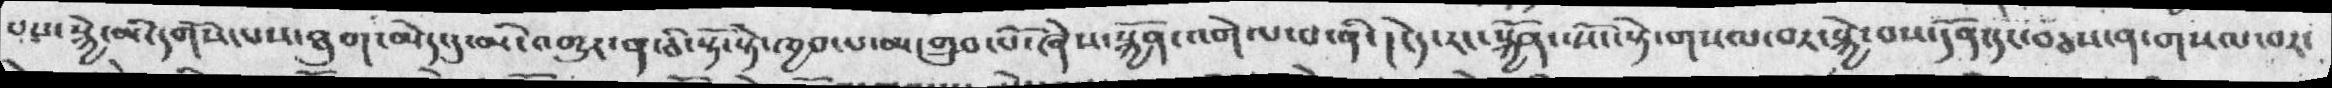པས་སྐྱེ་མི་དགོས་པས་ཐུག་མེད་དུ་མི་འགྱུར་ན་ཅི་སྟོ་སྟེ་ཁྱབ་པ་མ་གྲུབ་པོ་ཞེས་སྐྱོན་འགེལ་བ་ནི་།  ངེད་རང་སྐྱོན་སོང་སྟེ་གསལ་བར་སྐྱེ་བས་དོན་དང་བཅས་ན་གསལ་བར་
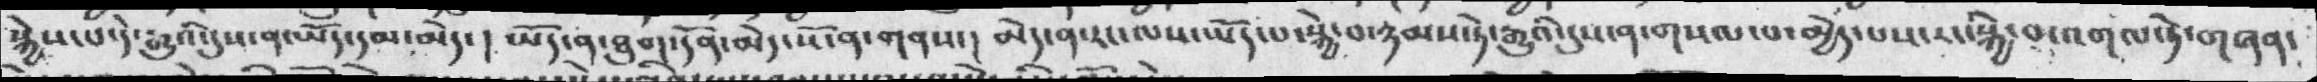སྐྱེས་པ་དེ་རྒྱའི་དུས་ན་ཡོད་དམ་མེད་།  ཡོད་ན་ཐུག་དོན་མེད་སོ་ན་གནས་།  མེད་ན་རང་ལས་ཡོད་པ་སྐྱེ་བ་ཉམས་ཏེ་རྒྱུའི་དུས་ན་གསལ་པ་མྱེད་པས་རང་སྐྱི་བ་འགལ་ཏེ་གཞན་
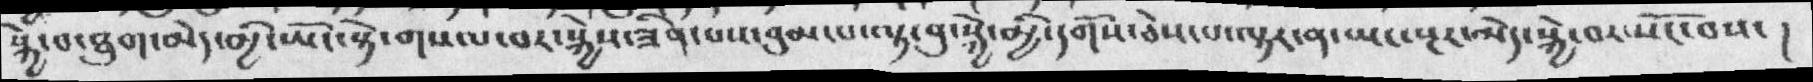སྐྱེ་བ་ཐུག་མེད་མྱི་ཡོང་སྟེ་གསལ་བར་སྐྱེས་ཟིན་པས་བུམ་པ་ལྟ་བུ་སྐྱེ་མྱི་དགོས་ཅེས་པ་ལྟར་ན་ཡང་སྔར་མེད་སྐྱེ་བར་སོང་བས་ །
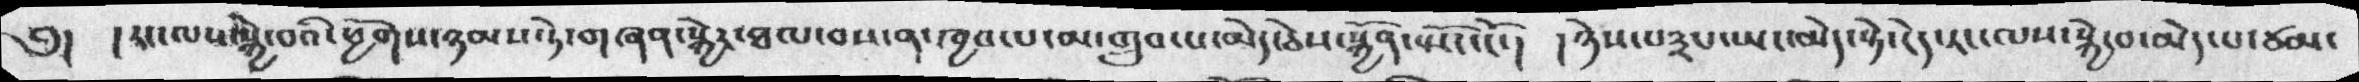༅། །རང་ལས་སྐྱེ་བའི་ཕྱོགས་ཉམས་ཏེ་གཞན་སྐྱེར་ཐལ་བས་ན་ཁྱབ་པ་མ་གྲུབ་པ་མེད་ཅེས་སྐྱོན་སྤོང་ངོ་། །ཉེས་པ༣པ་ཡང་མེད་སྟེ་ངེད་རང་ལས་སྐྱེ་བ་མེད་པ་ཙམ་
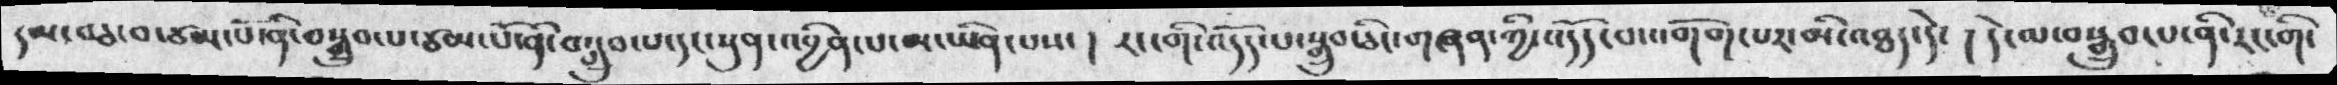དམ་བཅ་བ་ཙམ་པོ་ནི་བསྒྲུབ་པ་ཙམ་པོ་ནི་བསྒྲུབ་པ་དང་སུན་འབྱིན་པ་མ་ཡིན་པས་། རང་གི་འདོད་པ་སྒྲུབ་ཅིང་གཞན་ཀྱི་འདོད་པ་འགོག་པར་མི་འཐད་དེ་། དེ་ལ་བསྒྲུབ་པ་ནི་རང་གི་
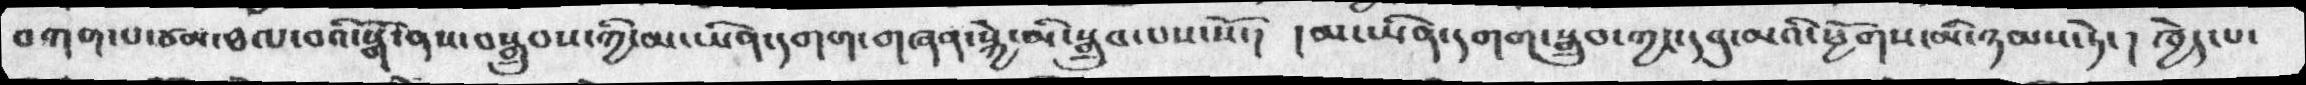བཀག་པ་ཙམ་ཐལ་བའི་སྒོ་ནས་བསྒྲུབས་ཀྱི་མ་ཡིན་དགག་གཞན་སྐྱེ་མི་སྒྲུབ་པས་སོ་།  །མ་ཡིན་དགག་སྒྲུབ་ཀྱང་དབུ་མའི་ཕྱོགས་མ་ཉམས་ཏེ་། ཁྱེད་པ་
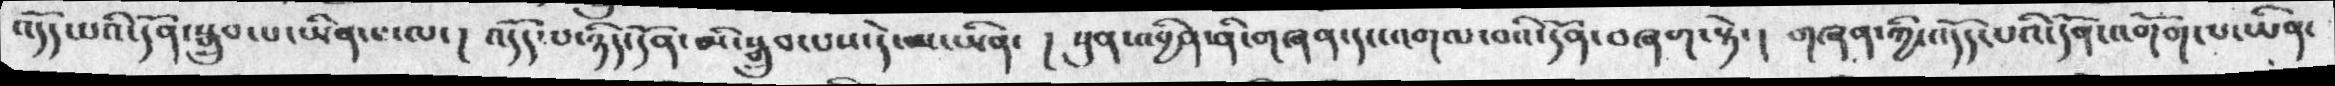འདོད་པའི་དོན་སྒྲུབ་པ་ཡིན་པ་ལ་། འདོད་པ་ཉིད་དོན་མི་སྒྲུབ་པས་དེ་མ་ཡིན་ ། སུན་འབྱིན་ནི་གཞན་དང་འགལ་བའི་དོན་བཞག་སྟེ་། གཞན་གྱི་འདོད་་པའི་དོན་འགོག་པ་ཡིན་
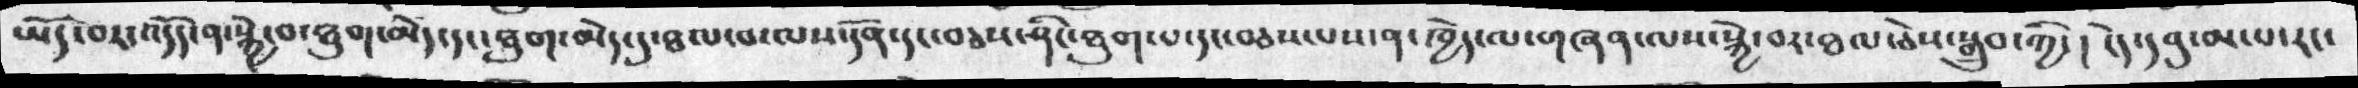ཡོད་བར་འདོད་ན་སྐྱེ་བ་ཐུག་མེད་དང་ཐུག་མེད་དུ་ཐལ་བ་ལས་དོན་དང་བཅས་ཤིང་ཐུག་པ་དང་བཅས་པས་ན་ཁྱེད་ལ་གཞན་ལས་སྐྱེ་བར་ཐལ་ཅེས་སྒྲུབ་ཀྱི་ ། ངེད་དབུ་མ་པ་རང་
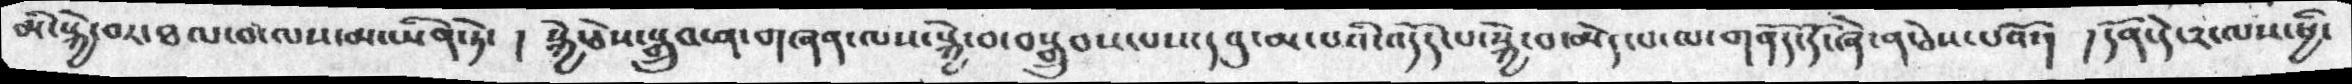མི་སྐྱེ་བར་ཐལ་བ་ལས་མ་ཡིན་ཏེ་  ། སྐྱེ་ཅེས་སྒྲུབ་ན་གཞན་ལས་སྐྱེ་བ་བསྒྲུབ་པས་དབུ་མ་པའི་འདོད་པ་སྐྱེ་བ་མེད་པ་ལ་གནོད་དོ་ཞེ་ན་ཅེས་པའོ་།  །དོན་དེ་༢་ལས་ཕྱི་
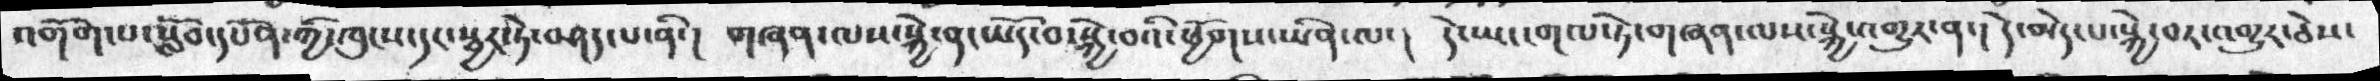འགོག་པ་སློབ་དཔོན་གྱི་ཁུངས་དང་སྦྱར་ཏེ་བཤད་པ་ནི་།  གཞན་ལས་སྐྱེ་ན་ཡོད་པ་སྐྱེ་བའི་ཕྱོགས་ཡིན་ལ་། དེ་ཡང་གལ་ཏེ་གཞན་ལས་སྐྱེ་འགྱུར་ན་། དེ་མེད་པ་སྐྱེ་བར་འགྱུར་ཅེས་
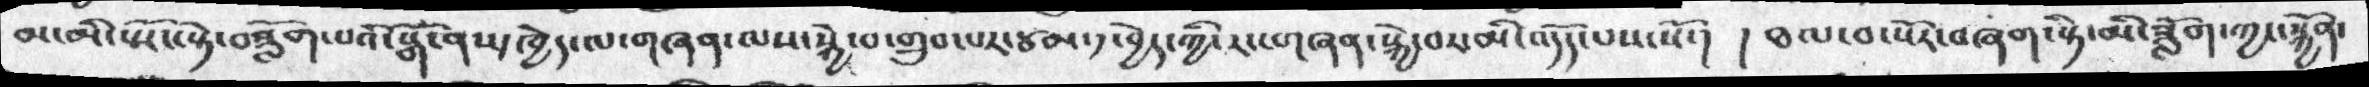མ་མི་སྤོང་སྟེ་བཟློག་པའི་སྒོ་ནས་ཁྱེད་ལ་གཞན་ལས་སྐྱེ་བ་གྲུབ་པར་ཙམ་༡་བྱེད་ཀྱི་རང་གཞན་སྐྱེ་བར་མི་འདོད་པས་སོ་།  ། ཐལ་བ་སོར་བཞག་སྟེ་མ་ཟློག་ཀྱང་སྐྱོན་
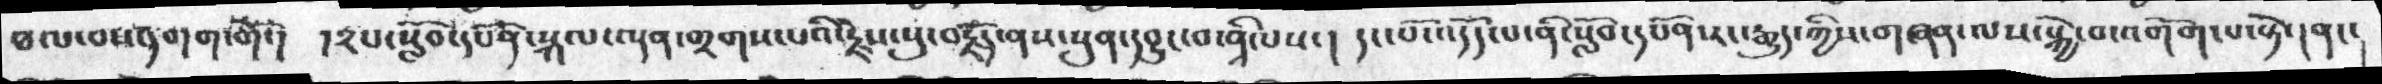ཐལ་བས་དགག་གོ་། །༢པ་སློབ་དཔོན་སྐལ་ལྡན་གྲགས་པའི་རྗེས་སུ་བརྗོད་ནས་སུན་དབྱུང་བ་ནི་པས་། དང་པོ་འདོད་པ་ནི་སློབ་དཔོན་རང་རྒྱུད་ཀྱིས་གཞན་ལས་སྐྱེ་བ་འགོག་པ་སྟེ་། ནང་
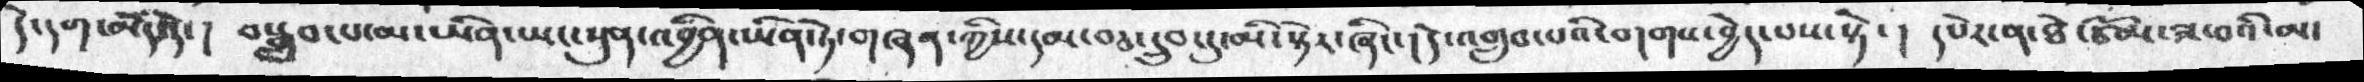དེ་དག་མེད་དེ་། བསྒྲུབ་པ་མ་ཡིན་ཡང་སུན་འབྱིན་ཡིན་ཏེ་གཞན་ཀྱིས་དམ་བཅ་དྲུབ་དུ་མི་སྟེར་ཞིང་། དེ་འགྲུབ་པའི་གགས་བྱེད་པས་སྟེ་། དཔེར་ན་ཐེ་ཙོམ་ཟ་བའི་མ་
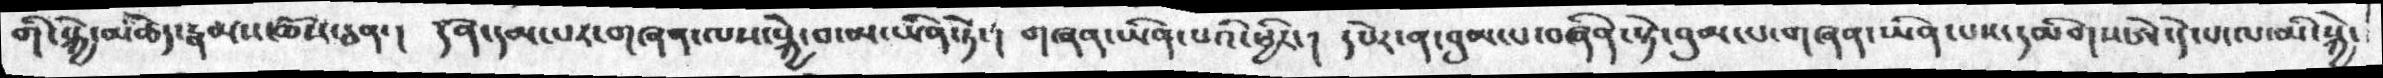གི་སྐྱེ་མཆེད་རྣམས་ཆོས་ཅན་། དོན་དམ་པར་གཞན་ལས་སྐྱེ་བ་མ་ཡིན་ཏེ་། གཞན་ཡིན་པའི་ཕྱིར་། དཔེར་ན་བུམ་པ་བཞིན་སྟེ་བུམ་པ་གཞན་ཡིན་པས་དམིགས་ཨེ་དེ་པ་ལ་མི་སྐྱེ་
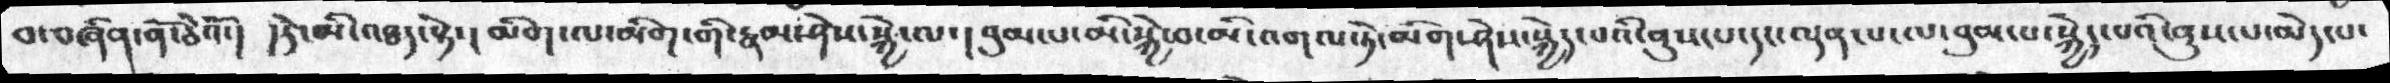བ་བཞིན་ནོ་ཅེའོ་། །དེ་མི་འཐད་སྟེ་། མིག་ལ་མིག་གི་རྣམ་ཤེས་སྐྱེ་ལ་། བུམ་པ་མི་སྐྱེ་བ་མི་འགལ་ཏེ་མིག་ཤེས་སྐྱེད་པའི་ནུས་པ་དང་ལྡན་པ་ལ་བུམ་པ་སྐྱེད་པའི་ནུས་པ་མེད་པ་
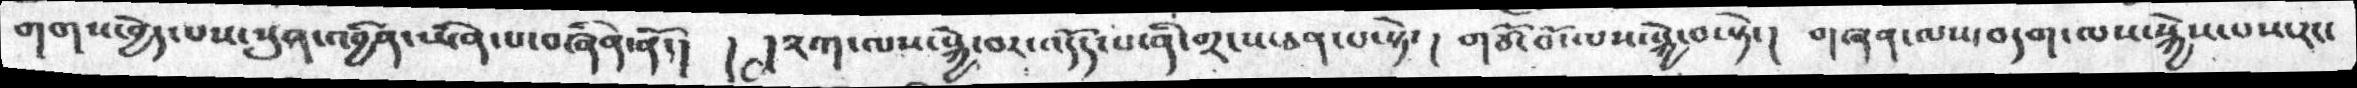གགས་བྱེད་པས་སུན་འབྱིན་ཡིན་པ་བཞིན་ནོ་། ། །༢ཀ་ལས་སྐྱེ་བར་འདོད་པ་ནི་གྲངས་ཅན་པ་སྟེ་། གཙོ་བོ་ལས་སྐྱེ་བ་སྟེ་། གཞན་ལས་བདག་ལས་སྐྱེས་པས་རང་
